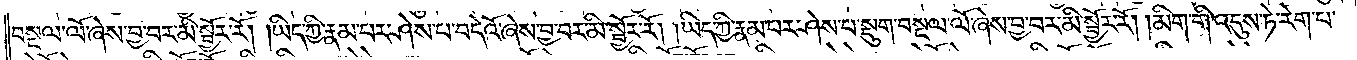བསྔལ་ལོ་ཞེས་བྱ་བར་མི་སྦྱོར་རོ། །ཡིད་ཀྱི་རྣམ་པར་ཤེས་པ་བདེའོ་ཞེས་བྱ་བར་མི་སྦྱོར་རོ། །ཡིད་ཀྱི་རྣམ་པར་ཤེས་པ་སྡུག་བསྔལ་ལོ་ཞེས་བྱ་བར་མི་སྦྱོར་རོ། །མིག་གི་འདུས་ཏེ་རེག་པ་
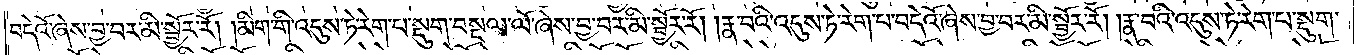བདེའོ་ཞེས་བྱ་བར་མི་སྦྱོར་རོ། །མིག་གི་འདུས་ཏེ་རེག་པ་སྡུག་བསྔལ་ལོ་ཞེས་བྱ་བར་མི་སྦྱོར་རོ། །རྣ་བའི་འདུས་ཏེ་རེག་པ་བདེའོ་ཞེས་བྱ་བར་མི་སྦྱོར་རོ། །རྣ་བའི་འདུས་ཏེ་རེག་པ་སྡུག་
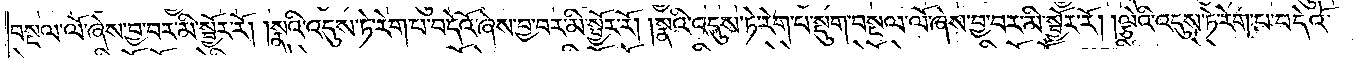བསྔལ་ལོ་ཞེས་བྱ་བར་མི་སྦྱོར་རོ། །སྣའི་འདུས་ཏེ་རེག་པ་བདེའོ་ཞེས་བྱ་བར་མི་སྦྱོར་རོ། །སྣའི་འདུས་ཏེ་རེག་པ་སྡུག་བསྔལ་ལོ་ཞེས་བྱ་བར་མི་སྦྱོར་རོ། །ལྕེའི་འདུས་ཏེ་རེག་པ་བདེའོ་
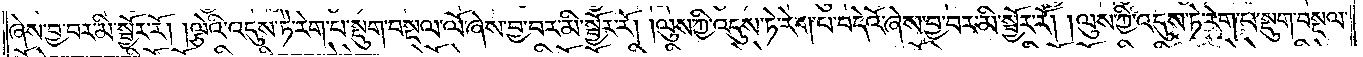ཞེས་བྱ་བར་མི་སྦྱོར་རོ། །ལྕེའི་འདུས་ཏེ་རེག་པ་སྡུག་བསྔལ་ལོ་ཞེས་བྱ་བར་མི་སྦྱོར་རོ། །ལུས་ཀྱི་འདུས་ཏེ་རེག་པ་བདེའོ་ཞེས་བྱ་བར་མི་སྦྱོར་རོ། །ལུས་ཀྱི་འདུས་ཏེ་རེག་པ་སྡུག་བསྔལ་
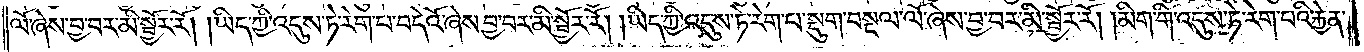ལོ་ཞེས་བྱ་བར་མི་སྦྱོར་རོ། །ཡིད་ཀྱི་འདུས་ཏེ་རེག་པ་བདེའོ་ཞེས་བྱ་བར་མི་སྦྱོར་རོ། །ཡིད་ཀྱི་འདུས་ཏེ་རེག་པ་སྡུག་བསྔལ་ལོ་ཞེས་བྱ་བར་མི་སྦྱོར་རོ། །མིག་གི་འདུས་ཏེ་རེག་པའི་རྐྱེན་
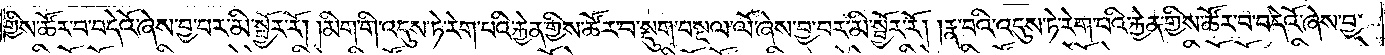གྱིས་ཚོར་བ་བདེའོ་ཞེས་བྱ་བར་མི་སྦྱོར་རོ། །མིག་གི་འདུས་ཏེ་རེག་པའི་རྐྱེན་གྱིས་ཚོར་བ་སྡུག་བསྔལ་ལོ་ཞེས་བྱ་བར་མི་སྦྱོར་རོ། །རྣ་བའི་འདུས་ཏེ་རེག་པའི་རྐྱེན་གྱིས་ཚོར་བ་བདེའོ་ཞེས་བྱ་
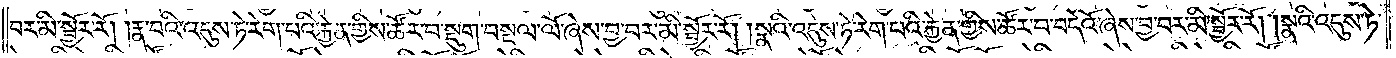བར་མི་སྦྱོར་རོ། །རྣ་བའི་འདུས་ཏེ་རེག་པའི་རྐྱེན་གྱིས་ཚོར་བ་སྡུག་བསྔལ་ལོ་ཞེས་བྱ་བར་མི་སྦྱོར་རོ། །སྣའི་འདུས་ཏེ་རེག་པའི་རྐྱེན་གྱིས་ཚོར་བ་བདེའོ་ཞེས་བྱ་བར་མི་སྦྱོར་རོ། །སྣའི་འདུས་ཏེ་
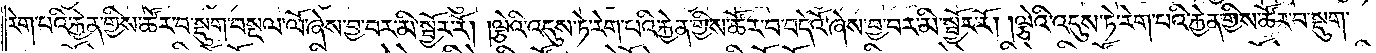རེག་པའི་རྐྱེན་གྱིས་ཚོར་བ་སྡུག་བསྔལ་ལོ་ཞེས་བྱ་བར་མི་སྦྱོར་རོ། །ལྕེའི་འདུས་ཏེ་རེག་པའི་རྐྱེན་གྱིས་ཚོར་བ་བདེའོ་ཞེས་བྱ་བར་མི་སྦྱོར་རོ། །ལྕེའི་འདུས་ཏེ་རེག་པའི་རྐྱེན་གྱིས་ཚོར་བ་སྡུག་
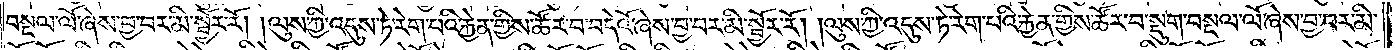བསྔལ་ལོ་ཞེས་བྱ་བར་མི་སྦྱོར་རོ། །ལུས་ཀྱི་འདུས་ཏེ་རེག་པའི་རྐྱེན་གྱིས་ཚོར་བ་བདེའོ་ཞེས་བྱ་བར་མི་སྦྱོར་རོ། །ལུས་ཀྱི་འདུས་ཏེ་རེག་པའི་རྐྱེན་གྱིས་ཚོར་བ་སྡུག་བསྔལ་ལོ་ཞེས་བྱ་བར་མི་
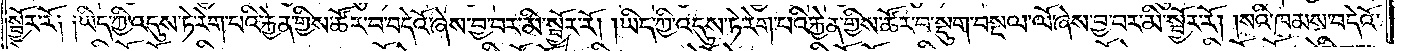སྦྱོར་རོ༑ ༑ཡིད་ཀྱི་འདུས་ཏེ་རེག་པའི་རྐྱེན་གྱིས་ཚོར་བ་བདེའོ་ཞེས་བྱ་བར་མི་སྦྱོར་རོ། །ཡིད་ཀྱི་འདུས་ཏེ་རེག་པའི་རྐྱེན་གྱིས་ཚོར་བ་སྡུག་བསྔལ་ལོ་ཞེས་བྱ་བར་མི་སྦྱོར་རོ། །སའི་ཁམས་བདེའོ་
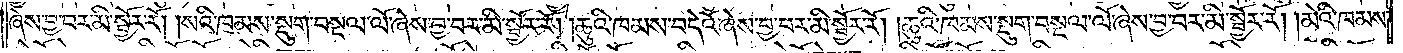ཞེས་བྱ་བར་མི་སྦྱོར་རོ། །སའི་ཁམས་སྡུག་བསྔལ་ལོ་ཞེས་བྱ་བར་མི་སྦྱོར་རོ། །ཆུའི་ཁམས་བདེའོ་ཞེས་བྱ་བར་མི་སྦྱོར་རོ། །ཆུའི་ཁམས་སྡུག་བསྔལ་ལོ་ཞེས་བྱ་བར་མི་སྦྱོར་རོ། །མེའི་ཁམས་
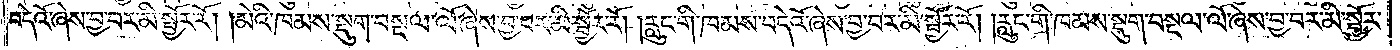བདེའོ་ཞེས་བྱ་བར་མི་སྦྱོར་རོ། །མེའི་ཁམས་སྡུག་བསྔལ་ལོ་ཞེས་བྱ་བར་མི་སྦྱོར་རོ། །རླུང་གི་ཁམས་བདེའོ་ཞེས་བྱ་བར་མི་སྦྱོར་རོ། །རླུང་གི་ཁམས་སྡུག་བསྔལ་ལོ་ཞེས་བྱ་བར་མི་སྦྱོར་
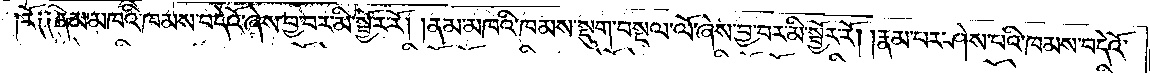རོ༑ ༑ནམ་མཁའི་ཁམས་བདེའོ་ཞེས་བྱ་བར་མི་སྦྱོར་རོ། །ནམ་མཁའི་ཁམས་སྡུག་བསྔལ་ལོ་ཞེས་བྱ་བར་མི་སྦྱོར་རོ། །རྣམ་པར་ཤེས་པའི་ཁམས་བདེའོ་
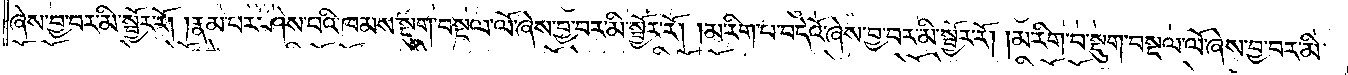ཞེས་བྱ་བར་མི་སྦྱོར་རོ། །རྣམ་པར་ཤེས་པའི་ཁམས་སྡུག་བསྔལ་ལོ་ཞེས་བྱ་བར་མི་སྦྱོར་རོ། །མ་རིག་པ་བདེའོ་ཞེས་བྱ་བར་མི་སྦྱོར་རོ། །མ་རིག་པ་སྡུག་བསྔལ་ལོ་ཞེས་བྱ་བར་མི་
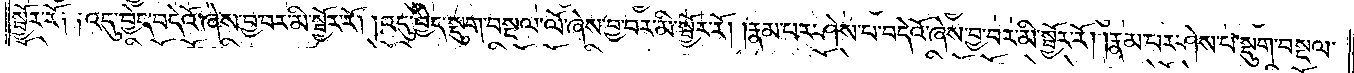སྦྱོར་རོ༑ ༑འདུ་བྱེད་བདེའོ་ཞེས་བྱ་བར་མི་སྦྱོར་རོ། །འདུ་བྱེད་སྡུག་བསྔལ་ལོ་ཞེས་བྱ་བར་མི་སྦྱོར་རོ། །རྣམ་པར་ཤེས་པ་བདེའོ་ཞེས་བྱ་བར་མི་སྦྱོར་རོ། །རྣམ་པར་ཤེས་པ་སྡུག་བསྔལ་
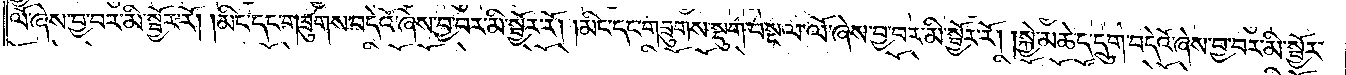ལོ་ཞེས་བྱ་བར་མི་སྦྱོར་རོ། །མིང་དང་གཟུགས་བདེའོ་ཞེས་བྱ་བར་མི་སྦྱོར་རོ། །མིང་དང་གཟུགས་སྡུག་བསྔལ་ལོ་ཞེས་བྱ་བར་མི་སྦྱོར་རོ། །སྐྱེ་མཆེད་དྲུག་བདེའོ་ཞེས་བྱ་བར་མི་སྦྱོར་
